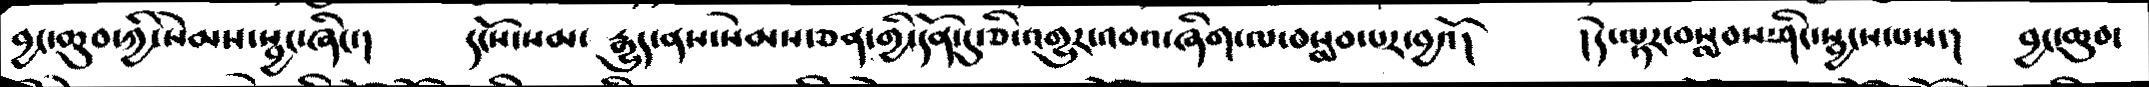བྱང་ཆུབ་ཀྱི་སེམས་སྦྱང་ཞིང་།   དངོས་སམ་ རྒྱུད་ནས་སེམས་ཅན་གྱི་དོན་དུ་ཅི་འགྱུར་འབའ་ཞིག་ལ་བསླབ་པར་བྱའོ།  །དེ་ལྟར་བསླབས་ཤིང་སྦྱངས་པས་།  བྱང་ཆུབ་
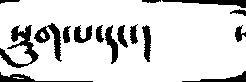སྡུག་པ་དང་།
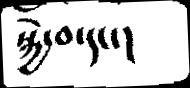སྐྱེ་བ་དང་།
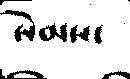སེམས་
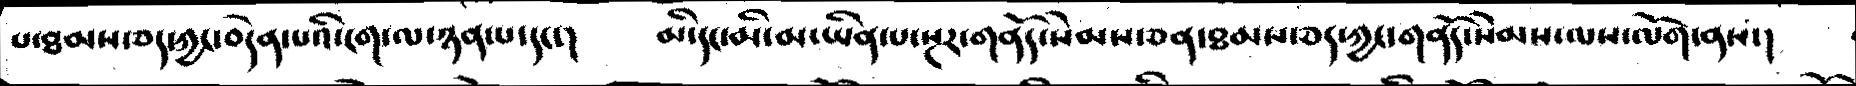པ་ཐམས་ཅད་ཀྱང་བདེན་པའི་ངག་ལ་ཉན་པ་དང་།     མི་དང་མི་མ་ཡིན་པ་སྔར་གནོད་སེམས་ཅན་ཐམས་ཅད་ཀྱང་གནོད་སེམས་ལས་ལོག་ནས་།
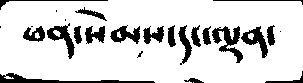ཕན་སེམས་དང་ལྡན་
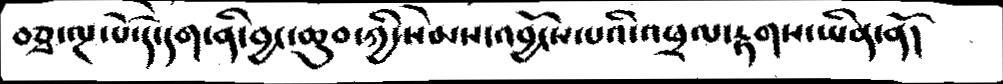བཅྭ་ལྔ་པོ་དེ་དག་ནི་བྱང་ཆུབ་ཀྱི་སེམས་འབྱོངས་པའི་འཕྲལ་རྟགས་ཡིན་ནོ།
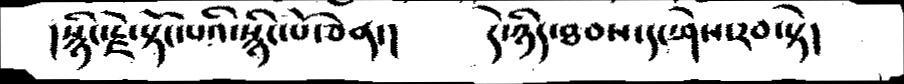།སྙིང་རྫེ་སྟོང་པའི་སྙིང་པོ་ཅེན་།   དེ་ཉིད་ཐབས་དང་ཤེས་རབ་སྟེ།
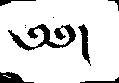༄༅།
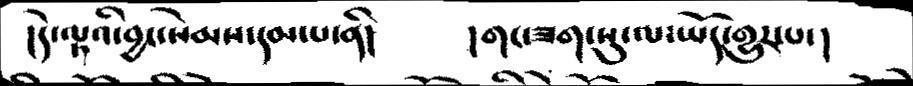།དེ་ལྟའི་བྱང་སེམས་དམ་པ་ནི།   །གང་ཟག་སུ་ལ་ཡོད་གྱུར་པ་།
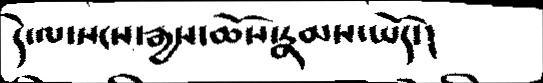དེ་ལ་སངས་རྒྱས་ཆོས་རྣམས་ཡོད་།
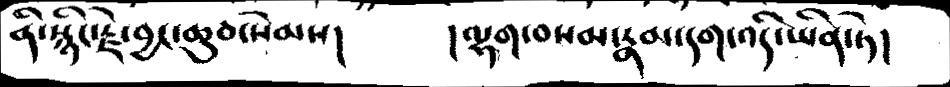ནི་སྙིང་རྗེ་བྱང་ཆུབ་སེམས།     །ལྷག་བསམ་རྣམ་དག་འདི་ཡིན་ཏེ།
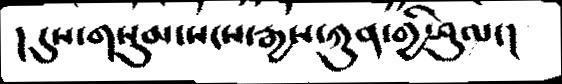།དུས་གསུམ་སངས་རྒྱས་ཀུན་གྱི་ཤུལ་།
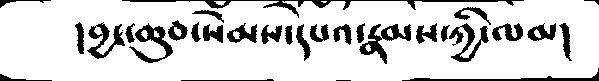།བྱང་ཆུབ་སེམས་དཔའ་རྣམས་ཀྱི་ལམ།
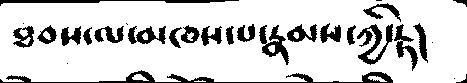ཐབས་ལ་མཁས་པ་རྣམས་ཀྱི་རྟ།
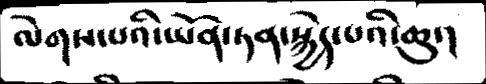ལེགས་པའི་ཡོན་ཏན་སྐྱེད་པའི་ཆུ་།
